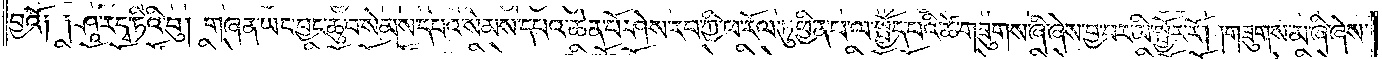བྱའོ༑ ༑ཤཱ་ར་དྭ་ཏིའི་བུ། གཞན་ཡང་བྱང་ཆུབ་སེམས་དཔའ་སེམས་དཔའ་ཆེན་པོ་ཤེས་རབ་ཀྱི་ཕ་རོལ་ཏུ་ཕྱིན་པ་ལ་སྤྱོད་པའི་ཚེ་གཟུགས་ཞི་ཞེས་བྱ་བར་མི་སྦྱོར་རོ། །གཟུགས་མ་ཞི་ཞེས་
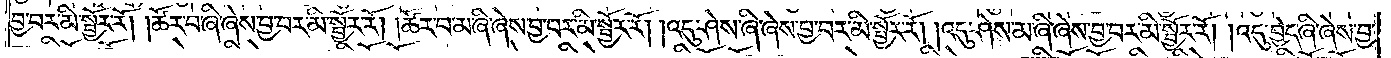བྱ་བར་མི་སྦྱོར་རོ། །ཚོར་བ་ཞི་ཞེས་བྱ་བར་མི་སྦྱོར་རོ། །ཚོར་བ་མ་ཞི་ཞེས་བྱ་བར་མི་སྦྱོར་རོ། །འདུ་ཤེས་ཞི་ཞེས་བྱ་བར་མི་སྦྱོར་རོ། །འདུ་ཤེས་མ་ཞི་ཞེས་བྱ་བར་མི་སྦྱོར་རོ། །འདུ་བྱེད་ཞི་ཞེས་བྱ་
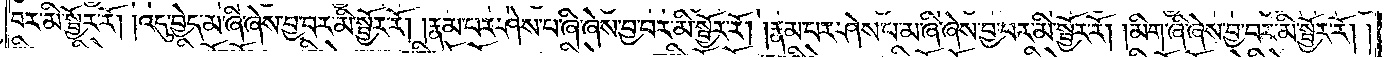བར་མི་སྦྱོར་རོ། །འདུ་བྱེད་མ་ཞི་ཞེས་བྱ་བར་མི་སྦྱོར་རོ། །རྣམ་པར་ཤེས་པ་ཞི་ཞེས་བྱ་བར་མི་སྦྱོར་རོ། །རྣམ་པར་ཤེས་པ་མ་ཞི་ཞེས་བྱ་བར་མི་སྦྱོར་རོ། །མིག་ཞི་ཞེས་བྱ་བར་མི་སྦྱོར་རོ། །
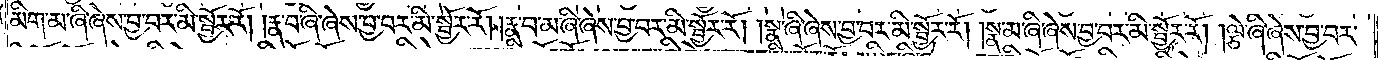མིག་མ་ཞི་ཞེས་བྱ་བར་མི་སྦྱོར་རོ། །རྣ་བ་ཞི་ཞེས་བྱ་བར་མི་སྦྱོར་རོ། །རྣ་བ་མ་ཞི་ཞེས་བྱ་བར་མི་སྦྱོར་རོ། །སྣ་ཞི་ཞེས་བྱ་བར་མི་སྦྱོར་རོ། །སྣ་མ་ཞི་ཞེས་བྱ་བར་མི་སྦྱོར་རོ། །ལྕེ་ཞི་ཞེས་བྱ་བར་
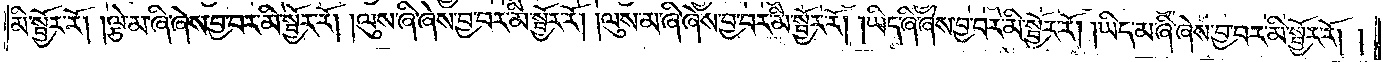མི་སྦྱོར་རོ། །ལྕེ་མ་ཞི་ཞེས་བྱ་བར་མི་སྦྱོར་རོ། །ལུས་ཞི་ཞེས་བྱ་བར་མི་སྦྱོར་རོ། །ལུས་མ་ཞི་ཞེས་བྱ་བར་མི་སྦྱོར་རོ། །ཡིད་ཞི་ཞེས་བྱ་བར་མི་སྦྱོར་རོ། །ཡིད་མ་ཞི་ཞེས་བྱ་བར་མི་སྦྱོར་རོ། །
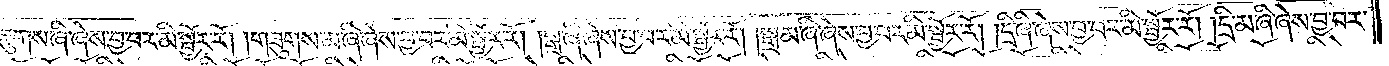གཟུགས་ཞི་ཞེས་བྱ་བར་མི་སྦྱོར་རོ། །གཟུགས་མ་ཞི་ཞེས་བྱ་བར་མི་སྦྱོར་རོ། །སྒྲ་ཞི་ཞེས་བྱ་བར་མི་སྦྱོར་རོ། །སྒྲ་མ་ཞི་ཞེས་བྱ་བར་མི་སྦྱོར་རོ། །དྲི་ཞི་ཞེས་བྱ་བར་མི་སྦྱོར་རོ། །དྲི་མ་ཞི་ཞེས་བྱ་བར་
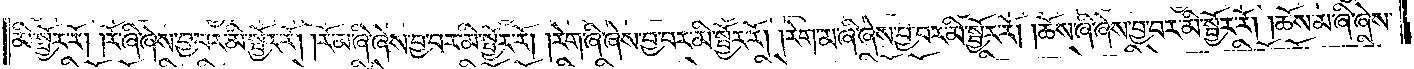མི་སྦྱོར་རོ། །རོ་ཞི་ཞེས་བྱ་བར་མི་སྦྱོར་རོ། །རོ་མ་ཞི་ཞེས་བྱ་བར་མི་སྦྱོར་རོ། །རེག་ཞི་ཞེས་བྱ་བར་མི་སྦྱོར་རོ། །རེག་མ་ཞི་ཞེས་བྱ་བར་མི་སྦྱོར་རོ། །ཆོས་ཞི་ཞེས་བྱ་བར་མི་སྦྱོར་རོ། །ཆོས་མ་ཞི་ཞེས་
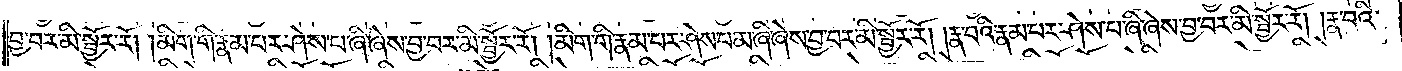བྱ་བར་མི་སྦྱོར་རོ། །མིག་གི་རྣམ་པར་ཤེས་པ་ཞི་ཞེས་བྱ་བར་མི་སྦྱོར་རོ། །མིག་གི་རྣམ་པར་ཤེས་པ་མ་ཞི་ཞེས་བྱ་བར་མི་སྦྱོར་རོ། །རྣ་བའི་རྣམ་པར་ཤེས་པ་ཞི་ཞེས་བྱ་བར་མི་སྦྱོར་རོ། །རྣ་བའི་
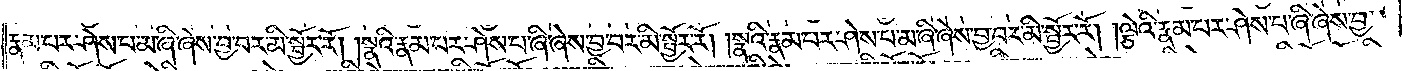རྣམ་པར་ཤེས་པ་མ་ཞི་ཞེས་བྱ་བར་མི་སྦྱོར་རོ། །སྣའི་རྣམ་པར་ཤེས་པ་ཞི་ཞེས་བྱ་བར་མི་སྦྱོར་རོ། །སྣའི་རྣམ་པར་ཤེས་པ་མ་ཞི་ཞེས་བྱ་བར་མི་སྦྱོར་རོ། །ལྕེའི་རྣམ་པར་ཤེས་པ་ཞི་ཞེས་བྱ་
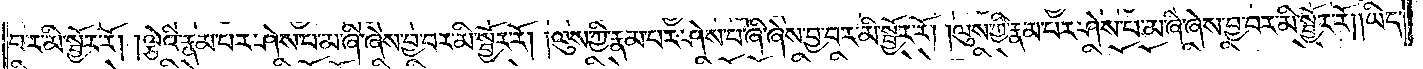བར་མི་སྦྱོར་རོ། །ལྕེའི་རྣམ་པར་ཤེས་པ་མ་ཞི་ཞེས་བྱ་བར་མི་སྦྱོར་རོ། །ལུས་ཀྱི་རྣམ་པར་ཤེས་པ་ཞི་ཞེས་བྱ་བར་མི་སྦྱོར་རོ། །ལུས་ཀྱི་རྣམ་པར་ཤེས་པ་མ་ཞི་ཞེས་བྱ་བར་མི་སྦྱོར་རོ། །ཡིད་
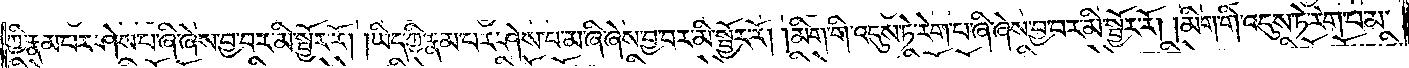ཀྱི་རྣམ་པར་ཤེས་པ་ཞི་ཞེས་བྱ་བར་མི་སྦྱོར་རོ། །ཡིད་ཀྱི་རྣམ་པར་ཤེས་པ་མ་ཞི་ཞེས་བྱ་བར་མི་སྦྱོར་རོ། །མིག་གི་འདུས་ཏེ་རེག་པ་ཞི་ཞེས་བྱ་བར་མི་སྦྱོར་རོ། །མིག་གི་འདུས་ཏེ་རེག་པ་མ་
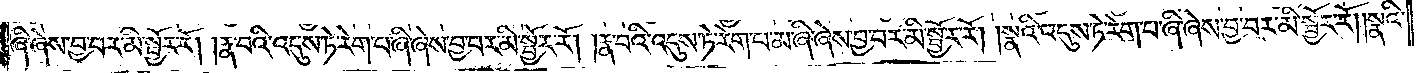ཞི་ཞེས་བྱ་བར་མི་སྦྱོར་རོ། །རྣ་བའི་འདུས་ཏེ་རེག་པ་ཞི་ཞེས་བྱ་བར་མི་སྦྱོར་རོ། །རྣ་བའི་འདུས་ཏེ་རེག་པ་མ་ཞི་ཞེས་བྱ་བར་མི་སྦྱོར་རོ། །སྣའི་འདུས་ཏེ་རེག་པ་ཞི་ཞེས་བྱ་བར་མི་སྦྱོར་རོ། །སྣའི་
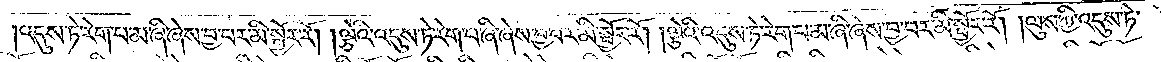འདུས་ཏེ་རེག་པ་མ་ཞི་ཞེས་བྱ་བར་མི་སྦྱོར་རོ། །ལྕེའི་འདུས་ཏེ་རེག་པ་ཞི་ཞེས་བྱ་བར་མི་སྦྱོར་རོ། །ལྕེའི་འདུས་ཏེ་རེག་པ་མ་ཞི་ཞེས་བྱ་བར་མི་སྦྱོར་རོ། །ལུས་ཀྱི་འདུས་ཏེ་
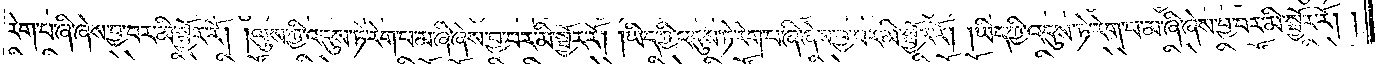རེག་པ་ཞི་ཞེས་བྱ་བར་མི་སྦྱོར་རོ། །ལུས་ཀྱི་འདུས་ཏེ་རེག་པ་མ་ཞི་ཞེས་བྱ་བར་མི་སྦྱོར་རོ། །ཡིད་ཀྱི་འདུས་ཏེ་རེག་པ་ཞི་ཞེས་བྱ་བར་མི་སྦྱོར་རོ། །ཡིད་ཀྱི་འདུས་ཏེ་རེག་པ་མ་ཞི་ཞེས་བྱ་བར་མི་སྦྱོར་རོ། །
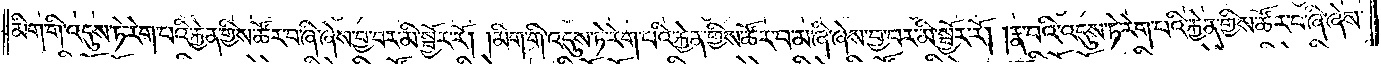མིག་གི་འདུས་ཏེ་རེག་པའི་རྐྱེན་གྱིས་ཚོར་བ་ཞི་ཞེས་བྱ་བར་མི་སྦྱོར་རོ། །མིག་གི་འདུས་ཏེ་རེག་པའི་རྐྱེན་གྱིས་ཚོར་བ་མ་ཞི་ཞེས་བྱ་བར་མི་སྦྱོར་རོ། །རྣ་བའི་འདུས་ཏེ་རེག་པའི་རྐྱེན་གྱིས་ཚོར་བ་ཞི་ཞེས་
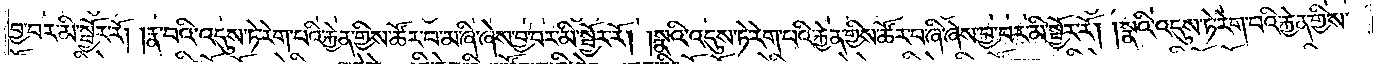བྱ་བར་མི་སྦྱོར་རོ། །རྣ་བའི་འདུས་ཏེ་རེག་པའི་རྐྱེན་གྱིས་ཚོར་བ་མ་ཞི་ཞེས་བྱ་བར་མི་སྦྱོར་རོ། །སྣའི་འདུས་ཏེ་རེག་པའི་རྐྱེན་གྱིས་ཚོར་བ་ཞི་ཞེས་བྱ་བར་མི་སྦྱོར་རོ། །སྣའི་འདུས་ཏེ་རེག་པའི་རྐྱེན་གྱིས་
